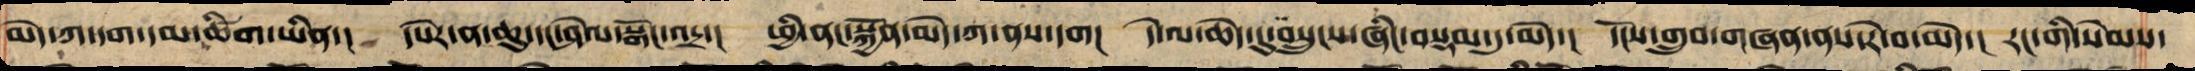མེད་ཀ་དག་དམ་ཚིག་ཡིན་།  དཔེར་ན་ཆུ་དང་ཤེལ་སྒོང་འདྲ་།  ཕྱི་ནང་སྐྱོན་མེད་ཀ་ནས་དག།  དེ་ལ་ཆེད་དུ་བསྲུངས་ཞིང་བསྡམ་དུ་མེད་།  དངོས་གྲུབ་གཞན་ནས་རེ་བ་མེད་།  རང་གི་སེམས་
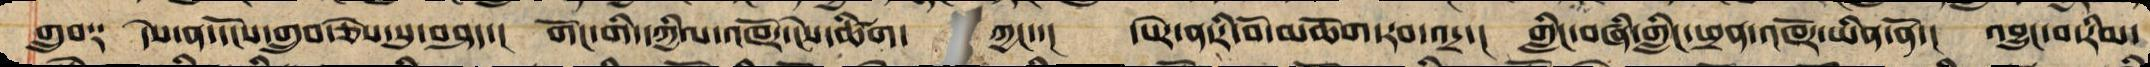གྲུབ༑  དེས་ན་དངོས་གྲུབ་ཅེས་སུ་བཤད་།  གོང་གི་དཀྱིལ་འཁོར་ངེས་ཚིག་   ཀྱང་་།  དཔེར་ན་རི་བོ་མཆོག་རབ་འདྲ་།  གླིང་བཞི་གླིང་ཕྲན་འཁོར་ཡིན་ནོ་།  འབྱུང་བ་རིམ་
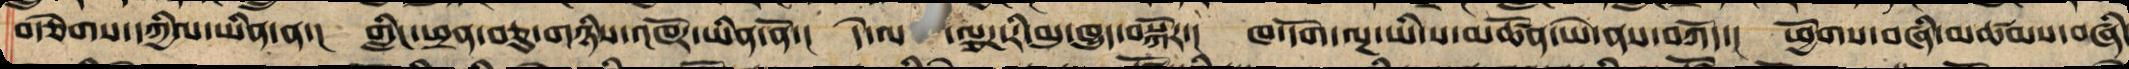བརྩེགས་དཀྱིལ་ཡིན་ན་།  གླིང་ཕྲན་བཅུ་གཉིས་འཁོར་ཡིན་ནོ་།  དེ་ལ  ་ལྕཌ་རི་མུ་ཁྱུད་བསྐོར་།  ཁ་དོག་ལྔ་ཡི་ས་མཚོན་ཡེ་ནས་བཀོད་།  ཕྱོགས་བཞི་མཚམས་བཞི་
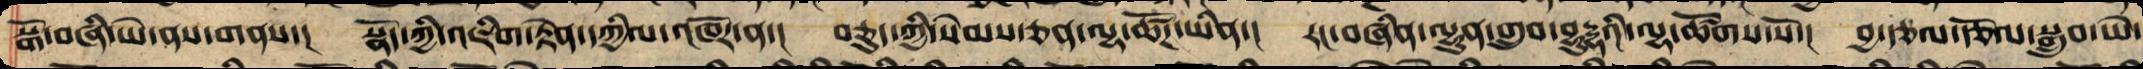སྒོ་བཞི་ཡེ་ནས་གནས་།  སྣོད་ཀྱི་འཇིག་རྟེན་དཀྱིལ་འཁོར་ན་།  བཅུད་ཀྱི་སེམས་ཅན་ལྷ་ཚོཌ་ཡིན་།  རང་བཞིན་ལྷུན་གྲུབ་བུདྡྷའི་ལྷ་ཚོགས་སོ་།  བྱ་རྩལ་རྩོལ་སྒྲུབ་ཡེ་
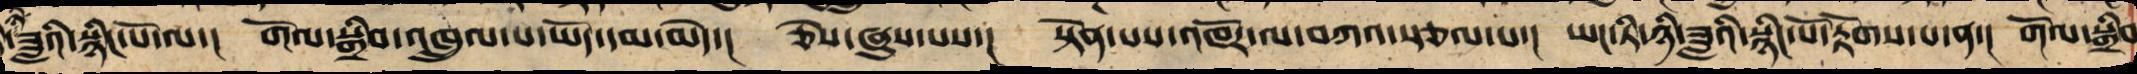ཟླའི་སྙིང་པོ་ལ་།  གོལ་སྒྲིབ་འཁྲུལ་པ་ཡོད་དམ་མེད་།  ཅེས་ཞུས་པས་། སྟོན་པས་འཁོར་ལ་བཀའ་སྩལ་པ་།  ཡང་ཏི་ཉི་ཟླའི་སྙིང་པོ་རྟོགས་པ་ན་།  གོལ་སྒྲིབ
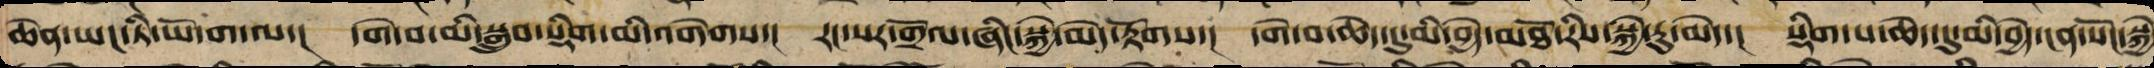ཆེན་ཡང་ཏི་ཡོ་ག་ལ་།  དགེ་བ་མི་སྒྲུབ་སྡིག་མི་འགེགས་།  རང་སར་གྲོལ་ཞིང་སྐྱེ་མེད་རྟོགས་།  དགེ་བ་ཆེད་དུ་མི་བྱེད་མཐོ་རིས་སྐྱེ་རུ་མེད་།  སྡིག་པ་ཆེད་དུ་མི་བྱེད་ངན་སོང་སྐྱེ
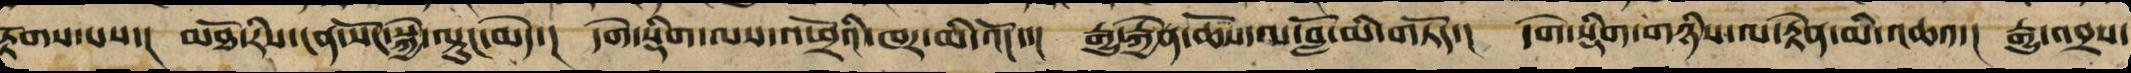རྟོགས་པས་།  མཐོ་རིས་ངན་སོང་སྐྱེ་ལྟུང་མེད་།  དགེ་སྡིག་ལས་འཕྲོའི་ཁར་མི་འོང་་།  རྒྱུ་རྐྱེན་ཆོས་ལ་བློ་མི་གཏོད་།  དགེ་སྡིག་གཉིས་ལ་རྟེན་མི་འཆའ་།  རྒྱུ་འབྲས་
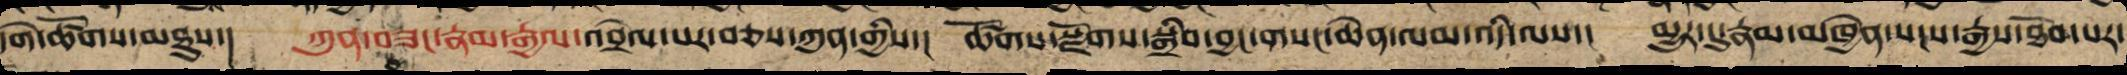དགེ་ཚོགས་མཐུས་།  ཀུན་བཟང་རྣམ་རྒྱལ་འབྲེལ་པར་བཅས་ཀུན་གྱིས་།  ཚོགས་སྫོགས་སྒྲིབ་བྱང་གསང་ཆེན་ལམ་འདི་ལས་།  མྱུར་དུ་རྣམ་མཁྱེན་སངས་རྒྱས་ཐོབ་པར་
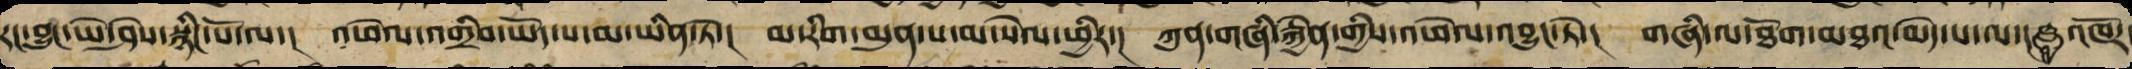རང་བྱུང་ཡེ་ཤེས་སྙིང་པོ་ལ་། འཕེལ་འགྲིབ་ཡོད་པ་མ་ཡིན་ཏེ་། མ་རིག་མུན་པ་མ་སེལ་ཕྱིར་། ཀུན་གཞིའི་རྐྱེན་གྱིས་འཕེལ་འབྱུང་ཏེ་། གཞི་ལ་ཐོག་མཐའ་མེད་པ་ལ་། འཁོར་
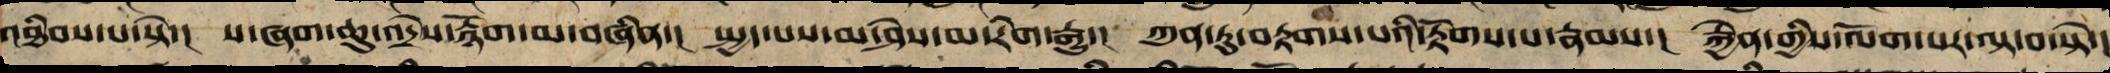འཐིབས་པ་སྟེ་།  ས་ཞག་ཆུ་འདྲེས་རྙོག་མ་བཞིན་།  སྤྱད་པས་མ་ཤེས་མ་རིག་རྒྱུ་།  ཀུན་ཏུ་བརྟགས་པའི་རྟོགས་པ་རྣམས་།  རྐྱེན་གྱིས་ལོག་པར་ལྟ་བ་སྟེ་།
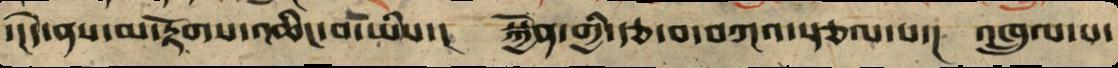་།།དེ་ནས་མ་རྟོགས་འཆིང་བ་ཡིས་།  སྐྱོན་གྱི་རྩ་བ་བཀའ་སྩལ་པ་།  འཁྲུལ་པ་
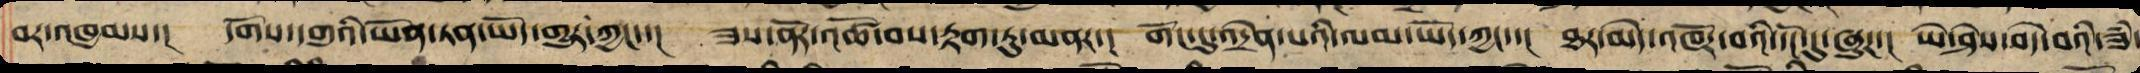བར་འཁྱམས་།  དགོས་དགུའི་ཡོན་ཏན་ཡོད་གྱུར་ཀྱང་་།  ཟས་ནོར་འཚོ་བས་རྟག་ཏུ་མནར་།  གོང་དུ་འདྲེན་པའི་ལམ་ཡོད་ཀྱང་་།  ཐར་མེད་འཁོར་བའི་དོང་དུ་ཞུཌ་།  ཡེ་ཤེས་བདེ་བའི་ཟཾ་
